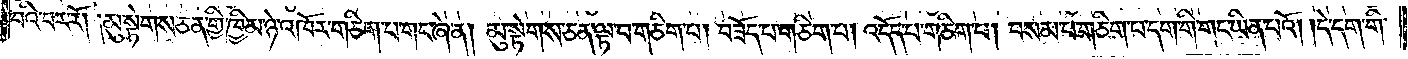བའི་བར་རོ། །མུ་སྟེགས་ཅན་གྱི་ཁྱིམ་ཉེ་འཁོར་གཅིག་པ་གང་ཞེ་ན། མུ་སྟེགས་ཅན་ལྟ་བ་གཅིག་པ། བཟོད་པ་གཅིག་པ། འདོད་པ་གཅིག་པ། བསམ་པ་གཅིག་པ་དག་གི་གང་ཡིན་པའོ། །དེ་དག་གི་
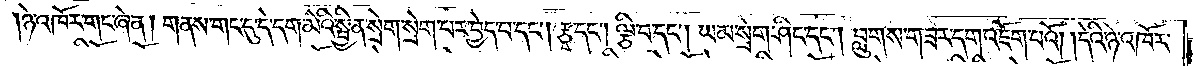ཉེ་འཁོར་གང་ཞེ་ན། གནས་གང་དུ་དེ་དག་མེའི་སྦྱིན་སྲེག་སྲེག་པར་བྱེད་པ་དང༌། རྩྭ་དང༌། ལྕི་བ་དང༌། ཡམ་སྲེག་ཤིང་དང༌། བླུགས་གཟར་དག་འཇོག་པའོ། །དེའི་ཉེ་འཁོར་
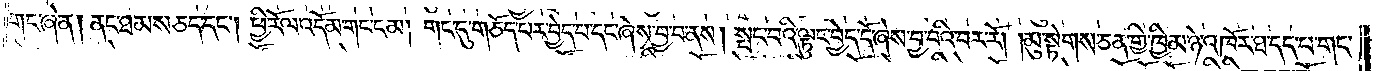གང་ཞེ་ན། ནང་ཐམས་ཅད་དང༌། ཕྱི་རོལ་འདོམ་གང་ངམ། གང་དུ་གཅོད་པར་བྱེད་པ་དང་ཞེས་བྱ་བ་ནས། སྤང་བའི་ལྟུང་བྱེད་དོ་ཞེས་བྱ་བའི་བར་རོ། །མུ་སྟེགས་ཅན་གྱི་ཁྱིམ་ཉེ་འཁོར་ཐ་དད་པ་གང་
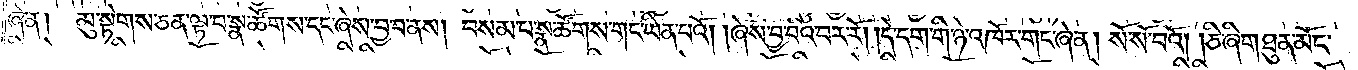ཞེ་ན། མུ་སྟེགས་ཅན་ལྟ་བ་སྣ་ཚོགས་དང་ཞེས་བྱ་བ་ནས། བསམ་པ་སྣ་ཚོགས་གང་ཡིན་པའོ། །ཞེས་བྱ་བའི་བར་རོ། །དེ་དག་གི་ཉེ་འཁོར་གང་ཞེ་ན། སོ་སོ་བའོ། །ཅི་ཞིག་ཐུན་མོང་
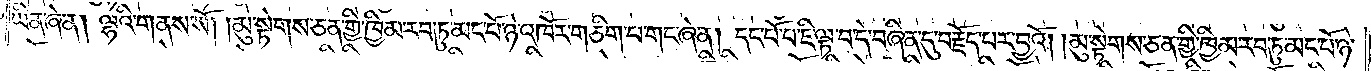ཡིན་ཞེ་ན། ལྷའི་གནས་སོ། །མུ་སྟེགས་ཅན་གྱི་ཁྱིམ་རབ་ཏུ་མང་པོ་ཉེ་འཁོར་གཅིག་པ་གང་ཞེ་ན། དང་པོ་པ་ཇི་ལྟ་བ་དེ་བཞིན་དུ་བརྗོད་པར་བྱའོ། །མུ་སྟེགས་ཅན་གྱི་ཁྱིམ་རབ་ཏུ་མང་པོ་ཉེ་
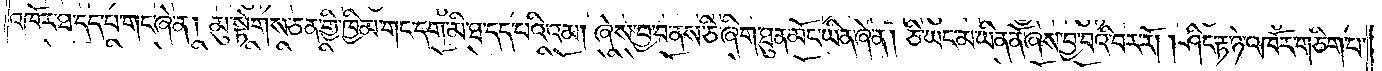འཁོར་ཐ་དད་པ་གང་ཞེ་ན། མུ་སྟེགས་ཅན་གྱི་ཁྱིམ་གང་དག་མི་ཐ་དད་པའི་འམ། ཞེས་བྱ་བ་ནས་ཅི་ཞིག་ཐུན་མོང་ཡིན་ཞེ་ན། ཅི་ཡང་མ་ཡིན་ནོ་ཞེས་བྱ་བའི་བར་རོ། །ཤིང་རྟ་ཉེ་འཁོར་གཅིག་པ་
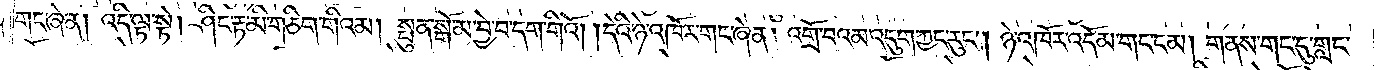གང་ཞེ་ན། འདི་ལྟ་སྟེ། ཤིང་རྟ་མི་གཅིག་གིའམ། སྤུན་སྒོ་མ་བྱེ་བ་དག་གིའོ། །དེའི་ཉེ་འཁོར་གང་ཞེ་ན། འགྲོ་བའམ་འདུག་ཀྱང་རུང༌། ཉེ་འཁོར་འདོམ་གང་ངམ། གནས་གང་དུ་གླང་
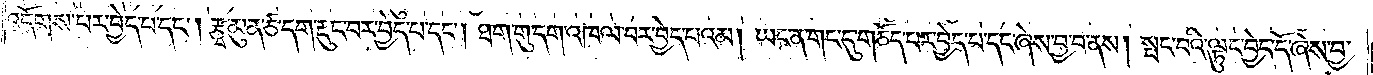འདོགས་པར་བྱེད་པ་དང༌། རྩྭ་མུན་ཙ་དག་རྡུང་བར་བྱེད་པ་དང༌། ཐ་ག་གུ་དག་འཁལ་བར་བྱེད་པའམ། ཡང་ན་གང་དུ་གཅོད་པར་བྱེད་པ་དང་ཞེས་བྱ་བ་ནས། སྤང་བའི་ལྟུང་བྱེད་དོ་ཞེས་བྱ་
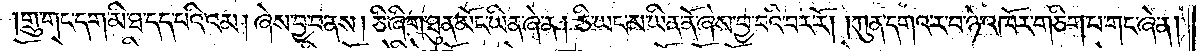གྲུ་གང་དག་མི་ཐ་དད་པའི་འམ། ཞེས་བྱ་བ་ནས། ཅི་ཞིག་ཐུན་མོང་ཡིན་ཞེ་ན། ཅི་ཡང་མ་ཡིན་ནོ་ཞེས་བྱ་བའི་བར་རོ། །ཀུན་དགའ་ར་བ་ཉེ་འཁོར་གཅིག་པ་གང་ཞེ་ན།
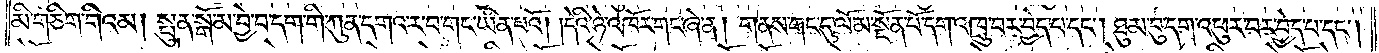མི་གཅིག་གིའམ། སྤུན་སྒོ་མ་བྱེ་བ་དག་གི་ཀུན་དགའ་ར་བ་གང་ཡིན་པའོ། །དེའི་ཉེ་འཁོར་གང་ཞེ་ན། གནས་གང་དུ་ལོ་མ་སྔོན་པོ་དག་འཁྲུ་བར་བྱེད་པ་དང༌། ཐུམ་བུ་དག་འཕུར་བར་བྱེད་པ་དང༌།
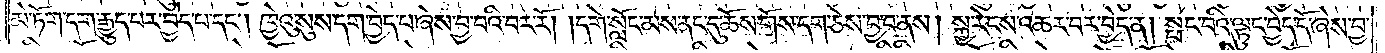མེ་ཏོག་དག་རྒྱུད་པར་བྱེད་པ་དང༌། ཁྱེའུ་སུས་དག་བྱེད་པ་ཞེས་བྱ་བའི་བར་རོ། །དགེ་སློང་མས་ནང་དུ་ཆོས་གོས་དང་ཅེས་བྱ་བ་ནས། སྐྱ་རེངས་འཆར་བར་བྱེད་ན། སྤང་བའི་ལྟུང་བྱེད་དོ་ཞེས་བྱ་
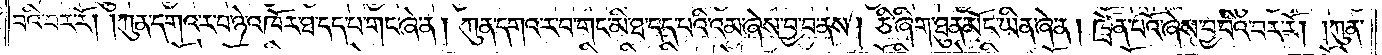བའི་བར་རོ། །ཀུན་དགའ་ར་བ་ཉེ་འཁོར་ཐ་དད་པ་གང་ཞེ་ན། ཀུན་དགའ་ར་བ་གང་མི་ཐ་དད་པའི་འམ་ཞེས་བྱ་བ་ནས། ཅི་ཞིག་ཐུན་མོང་ཡིན་ཞེ་ན། ཁྲོན་པའོ་ཞེས་བྱ་བའི་བར་རོ། །ཀུན་
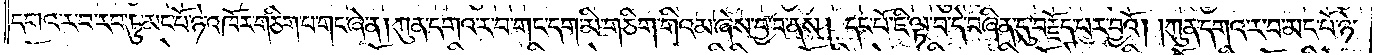དགའ་ར་བ་རབ་ཏུ་མང་པོ་ཉེ་འཁོར་གཅིག་པ་གང་ཞེ་ན། ཀུན་དགའ་ར་བ་གང་དག་མི་གཅིག་གིའམ་ཞེས་བྱ་བ་ནས། དང་པོ་ཇི་ལྟ་བ་དེ་བཞིན་དུ་བརྗོད་པར་བྱའོ། །ཀུན་དགའ་ར་བ་མང་པོ་ཉེ་
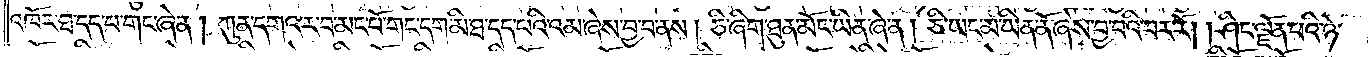འཁོར་ཐ་དད་པ་གང་ཞེ་ན། ཀུན་དགའ་ར་བ་མང་པོ་གང་དག་མི་ཐ་དད་པའི་འམ་ཞེས་བྱ་བ་ནས། ཅི་ཞིག་ཐུན་མོང་ཡིན་ཞེ་ན། ཅི་ཡང་མ་ཡིན་ནོ་ཞེས་བྱ་བའི་བར་རོ། །ཤིང་ལྗོན་པའི་ཉེ་
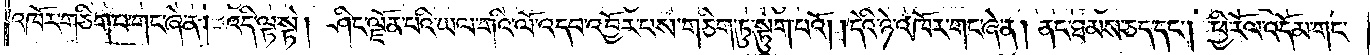འཁོར་གཅིག་པ་གང་ཞེ་ན། འདི་ལྟ་སྟེ། ཤིང་ལྗོན་པའི་ཡལ་གའི་ལོ་འདབ་འབྱོར་པས་གཅིག་ཏུ་སྟུག་པའོ། །དེའི་ཉེ་འཁོར་གང་ཞེ་ན། ནང་ཐམས་ཅད་དང༌། ཕྱི་རོལ་འདོམ་གང་
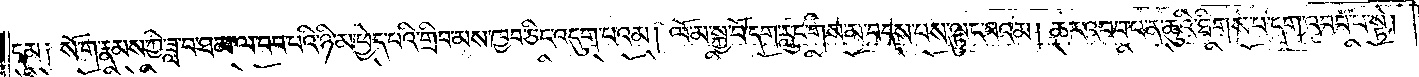ངམ༑ སོ་ག་རྣམས་ཀྱེ་ཟླ་བ་ཐ་མ་ལ་བབ་པའི་ཉི་མ་ཕྱེད་པའི་གྲིབ་མས་ཁྱབ་ཅིང་འདུག་པའམ། ལོ་མ་སྐྱ་བོ་དག་རླུང་གིས་མ་བདས་པས་ལྟུང་བའམ། ཆར་འབབ་པ་ན་ཆུའི་ཐིགས་པ་དག་འབབ་པ་སྟེ།
